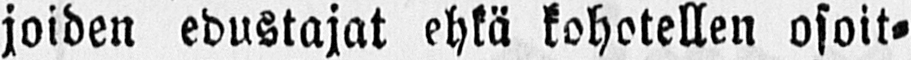joiden edustajat ehkä kohotellen ajoit-
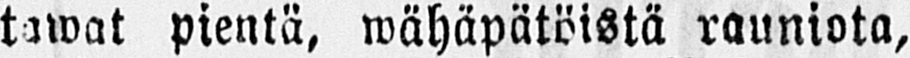tawat pientä, wähäpätöistä rauniota,
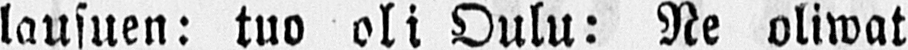lausuen: tuo oli Oulu: Ne oliwat
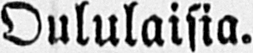Oululaisia.
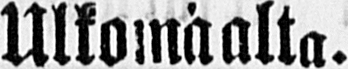Ulkomaalta.
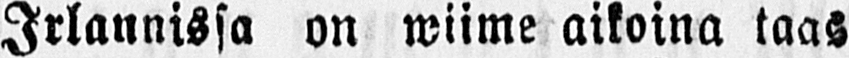Irlannissa on wiime aikoina taas
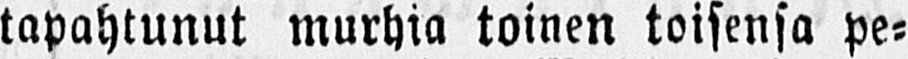tapahtunut murhia toinen toisensa pe-
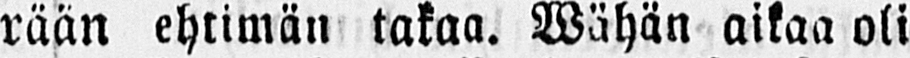rään ehtimän takaa. Wähän aikaa oli
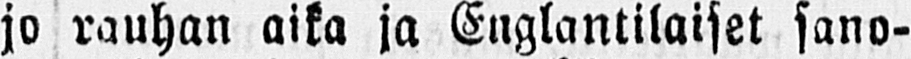jo rauhan aika ja Englantilaiset sano-
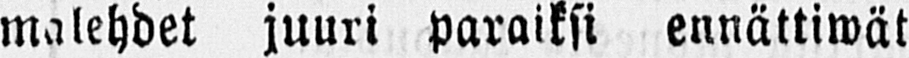malehdet juuri paraiksi ennättiwät
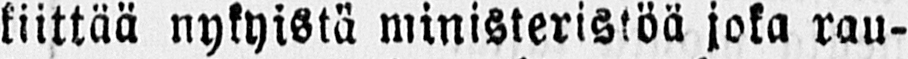kiittää nykyistä ministeristöä joka rau-
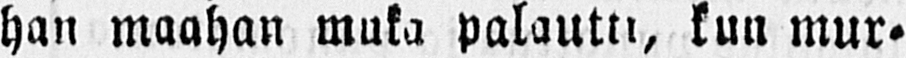han maahan muka palautti, kun mur-
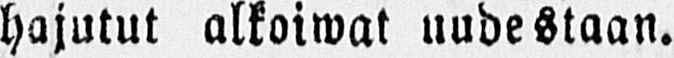hajutut alkoiwat uudestaan.
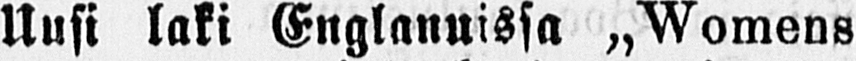Uusi laki Englannissa „Womens
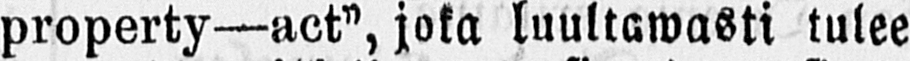property—act", joka luultawasti tulee
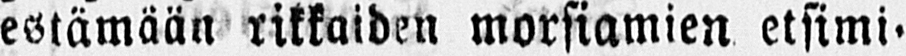estämään rikkaiden morsiamien etsimi-
